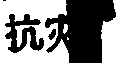抗灾
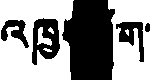འཁྱ  ག་
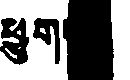ཕྱུག
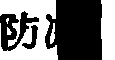防凍
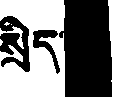སྲིད
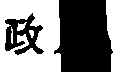政府
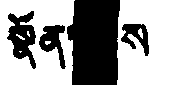སྣོན་ ས་
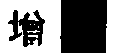增
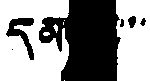དམ ་་་
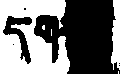དག
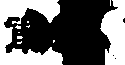第
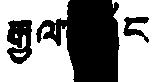རྒྱལ ང
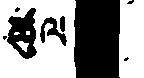ཚུལ
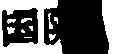国際
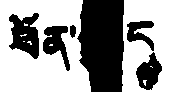ཐོན་སྐྱད
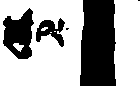ཚུལ
